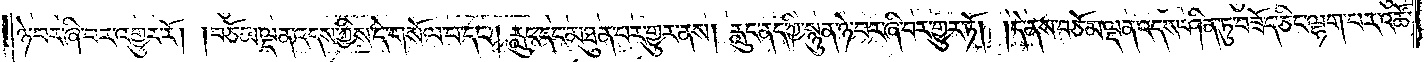ཉེ་བར་ཞི་བར་འགྱུར་རོ། །བཅོམ་ལྡན་འདས་ཀྱིས་དེ་གསོལ་པ་དང༌། རླུང་དང་མཐུན་པར་གྱུར་ནས། རླུང་ནད་ཀྱི་སྙུན་ཉེ་བར་ཞི་བར་གྱུར་ཏོ། །དེ་ནས་བཅོམ་ལྡན་འདས་ཤིན་ཏུ་བཟོད་ཅིང་ལྷག་པར་འཚོ་
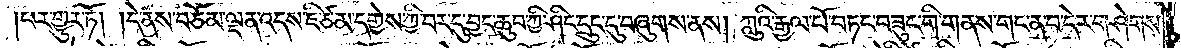པར་གྱུར་ཏོ། །དེ་ནས་བཅོམ་ལྡན་འདས་ཇི་ཙམ་དགྱེས་ཀྱི་བར་དུ་བྱང་ཆུབ་ཀྱི་ཤིང་དྲུང་དུ་བཞུགས་ནས། ཀླུའི་རྒྱལ་པོ་བཏང་བཟུང་གི་གནས་གང་ན་བ་དེར་གཤེགས་
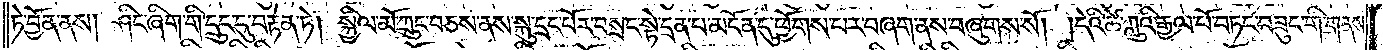ཏེ་བྱོན་ནས། ཤིང་ཞིག་གི་དྲུང་དུ་བརྟེན་ཏེ། སྐྱིལ་མོ་ཀྲུང་བཅས་ནས་སྐུ་དྲང་པོར་བསྲང་སྟེ་དྲན་པ་མངོན་དུ་ཕྱོགས་པར་བཞག་ནས་བཞུགས་སོ། །དེའི་ཚེ་ཀླུའི་རྒྱལ་པོ་བཏང་བཟུང་གི་གནས་
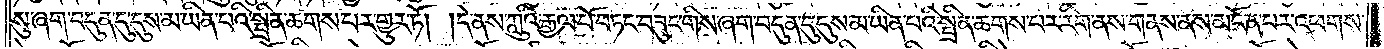སུ་ཞག་བདུན་དུ་དུས་མ་ཡིན་པའི་སྤྲིན་ཆགས་པར་གྱུར་ཏོ། །དེ་ནས་ཀླུའི་རྒྱལ་པོ་བཏང་བཟུང་གིས་ཞག་བདུན་དུ་དུས་མ་ཡིན་པའི་སྤྲིན་ཆགས་པར་རིག་ནས་གནས་ནས་མངོན་པར་འཕགས་
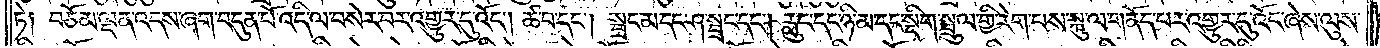ཏེ༑ བཅོམ་ལྡན་འདས་ཞག་བདུན་པོ་འདི་ལ་བསེར་བར་འགྱུར་དུ་འོང༌། ཚ་བ་དང༌། སྦྲང་མ་དང་ཤ་སྦྲང་དང༌། རླུང་དང་ཉི་མ་དང་སྡིག་སྦྲུལ་གྱི་རེག་པས་སྐུ་ལ་གནོད་པར་འགྱུར་དུ་འོང་ཞེས་ལུས་
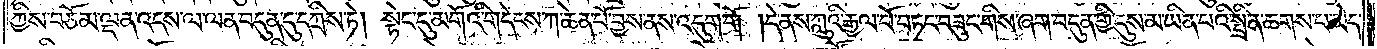ཀྱིས་བཅོམ་ལྡན་འདས་ལ་ལན་བདུན་དུ་དཀྲིས་ཏེ། སྟེང་དུ་མགོའི་གདེངས་ཀ་ཆེན་པོ་བྱས་ནས་འདུག་གོ །དེ་ནས་ཀླུའི་རྒྱལ་པོ་བཏང་བཟུང་གིས་ཞག་བདུན་གྱི་དུས་མ་ཡིན་པའི་སྤྲིན་ཆགས་པ་མེད་
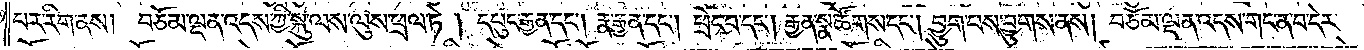པར་རིག་ནས། བཅོམ་ལྡན་འདས་ཀྱི་སྐུ་ལས་ལུས་ཕྲལ་ཏེ། དཔུང་རྒྱན་དང༌། རྣ་རྒྱན་དང༌། ཕྲེང་བ་དང༌། རྒྱན་སྣ་ཚོགས་དང༌། བྱུག་པས་བྱུགས་ནས། བཅོམ་ལྡན་འདས་གང་ན་བ་དེར་
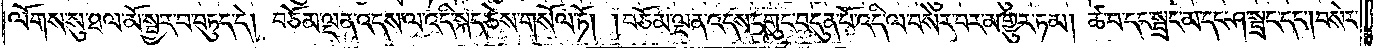ལོགས་སུ་ཐལ་མོ་སྦྱར་བ་བཏུད་དེ། བཅོམ་ལྡན་འདས་ལ་འདི་སྐད་ཅེས་གསོལ་ཏོ། །བཅོམ་ལྡན་འདས་དགུང་བདུན་པོ་འདི་ལ་བསེར་བར་མ་གྱུར་ཏམ། ཚ་བ་དང་སྦྲང་མ་དང་ཤ་སྦྲང་དང༌། བསེར་
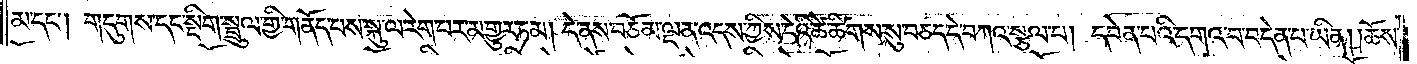མ་དང༌། གདུགས་དང་སྡིག་སྦྲུལ་གྱི་གནོད་པས་སྐུ་ལ་རེག་པར་མ་གྱུར་ཏམ། དེ་ནས་བཅོམ་ལྡན་འདས་ཀྱིས་དེའི་ཚེ་ཚིགས་སུ་བཅད་དེ་བཀའ་སྩལ་པ། དབེན་པའི་དགའ་བ་བདེན་པ་ཡིན། །ཆོས་
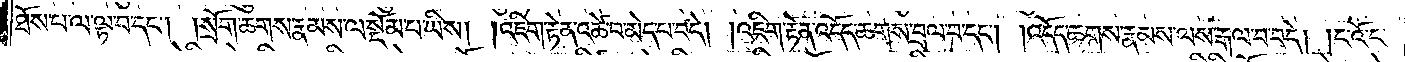ཐོས་པ་ལ་ལྟ་བ་དང༌། །སྲོག་ཆགས་རྣམས་ལ་སྡོམ་པ་ཡིས། །འཇིག་རྟེན་འཚེ་བ་མེད་པ་བདེ། །འཇིག་རྟེན་འདོད་ཆགས་བྲལ་བ་དང༌། །འདོད་ཆགས་རྣམས་ལས་རྒལ་བ་བདེ། །ང་འོ་ང་
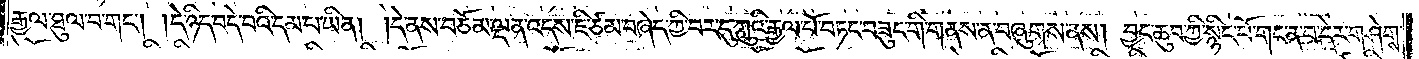རྒྱལ་ཐུལ་བ་གང༌། །དེ་ཉིད་བདེ་བའི་དམ་པ་ཡིན། །དེ་ནས་བཅོམ་ལྡན་འདས་ཇི་ཙམ་བཞེད་ཀྱི་བར་དུ་ཀླུའི་རྒྱལ་པོ་བཏང་བཟུང་གི་གནས་ན་བཞུགས་ནས། བྱང་ཆུབ་ཀྱི་སྙིང་པོ་གང་ན་བ་དེར་གཤེགས་
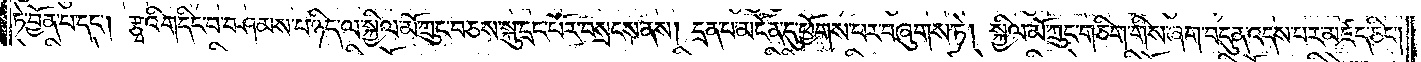ཏེ་བྱོན་པ་དང༌། རྩྭའི་གདིང་བ་བཤམས་པ་ཉིད་ལ་སྐྱིལ་མོ་ཀྲུང་བཅས་སྐུ་དྲང་པོར་བསྲངས་ནས། དྲན་པ་མངོན་དུ་ཕྱོགས་པར་བཞུགས་ཏེ། སྐྱིལ་མོ་ཀྲུང་གཅིག་གིས་ཞག་བདུན་འདས་པར་མཛད་ཅིང༌།
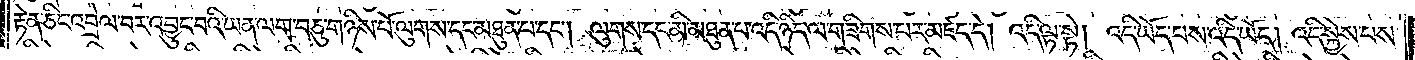རྟེན་ཅིང་འབྲེལ་བར་འབྱུང་བའི་ཡན་ལག་བཅུ་གཉིས་པོ་ལུགས་དང་མཐུན་པ་དང༌། ལུགས་དང་མི་མཐུན་པ་འདི་ཉིད་ལ་གཟིགས་པར་མཛད་དེ། འདི་ལྟ་སྟེ། འདི་ཡོད་པས་འདི་ཡོད། འདི་སྐྱེས་པས་
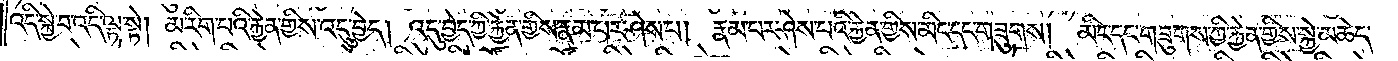འདི་སྐྱེ་བ་འདི་ལྟ་སྟེ། མ་རིག་པའི་རྐྱེན་གྱིས་འདུ་བྱེད། འདུ་བྱེད་ཀྱི་རྐྱེན་གྱིས་རྣམ་པར་ཤེས་པ། རྣམ་པར་ཤེས་པའི་རྐྱེན་གྱིས་མིང་དང་གཟུགས། །མིང་དང་གཟུགས་ཀྱི་རྐྱེན་གྱིས་སྐྱེ་མཆེད་
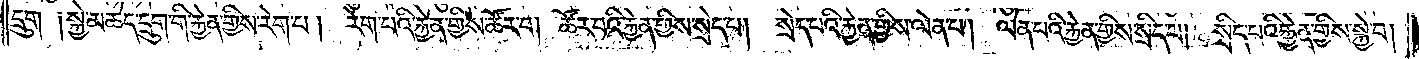དྲུག༑ ༑སྐྱེ་མཆེད་དྲུག་གི་རྐྱེན་གྱིས་རེག་པ། རེག་པའི་རྐྱེན་གྱིས་ཚོར་བ། ཚོར་བའི་རྐྱེན་གྱིས་སྲེད་པ། སྲེད་པའི་རྐྱེན་གྱིས་ལེན་པ། ལེན་པའི་རྐྱེན་གྱིས་སྲིད་པ། སྲིད་པའི་རྐྱེན་གྱིས་སྐྱེ་བ།
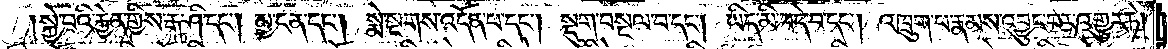སྐྱེ་བའི་རྐྱེན་གྱིས་རྒ་ཤི་དང༌། མྱ་ངན་དང༌། སྨེ་སྔགས་འདོན་པ་དང༌། སྡུག་བསྔལ་བ་དང༌། ཡིད་མི་བདེ་བ་དང༌། འཁྲུག་པ་རྣམས་འབྱུང་བར་འགྱུར་ཏེ།
